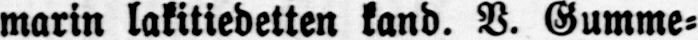marin lakitiedetten kand. V. Gumme-
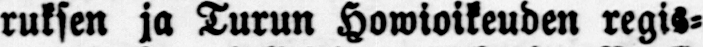ruksen ja Turun Howioikeuden regis-
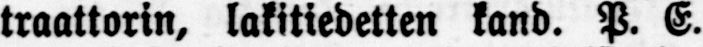traattorin, lakitiedetten kand. P. E.
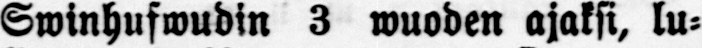Swinhufwudin 3 wuoden ajaksi, lu-
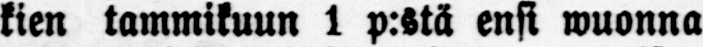kien tammikuun 1 p:stä ensi wuonna
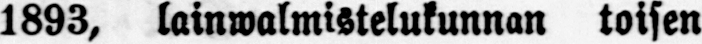1893, lainwalmistelukunnan toisen
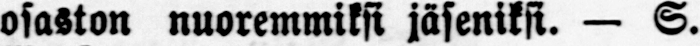osaston nuoremmiksi jäseniksi. — S.
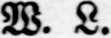W. L.
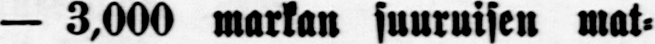— 3,000 markan suuruisen mat-
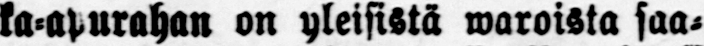ka-apurahan on yleisistä waroista saa-
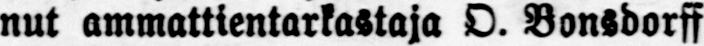nut ammattientarkastaja O. Bonsdorff
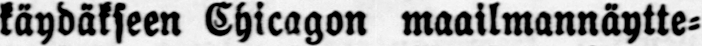käydäkseen Chicagon maailmannäytte-
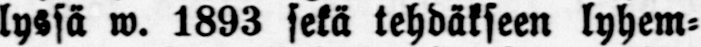lyssä w. 1893 sekä tehdäkseen lyhem-
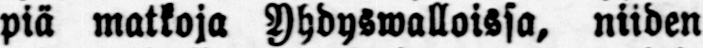piä matkoja Yhdydwalloissa, niiden
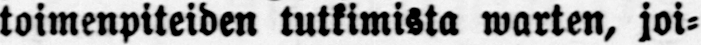toimenpiteiden tutkimista warten, joi-
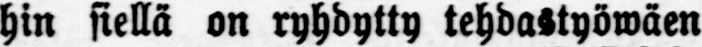hin siellä on ryhdytty tehdastyöwäen
